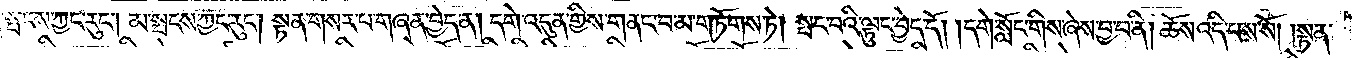སྤངས་ཀྱང་རུང༌། མ་སྤངས་ཀྱང་རུང༌། སྟན་གསར་པ་གཞན་བྱེད་ན། དགེ་འདུན་གྱིས་གནང་བ་མ་གཏོགས་ཏེ། སྤང་བའི་ལྟུང་བྱེད་དོ། །དགེ་སློང་གིས་ཞེས་བྱ་བ་ནི། ཆོས་འདི་པས་སོ། །སྟན་
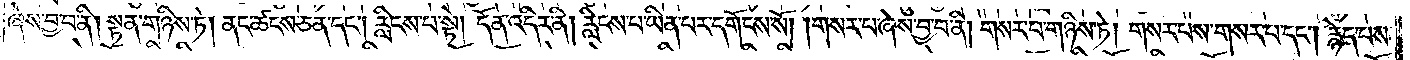ཞེས་བྱ་བ་ནི། སྟན་གཉིས་ཏེ། ནང་ཚངས་ཅན་དང༌། རླིངས་པ་སྟེ། དོན་འདིར་ནི། རླིངས་པ་ཡིན་པར་དགོངས་སོ། །གསར་པ་ཞེས་བྱ་བ་ནི། གསར་པ་གཉིས་ཏེ། གསར་པས་གསར་པ་དང༌། རྙེད་པས་
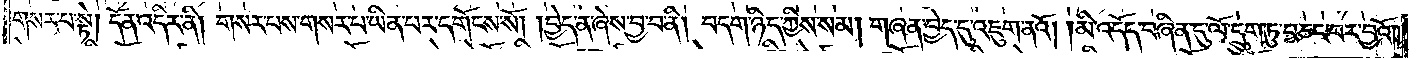གསར་པ་སྟེ། དོན་འདིར་ནི། གསར་པས་གསར་པ་ཡིན་པར་དགོངས་སོ། །བྱེད་ན་ཞེས་བྱ་བ་ནི། བདག་ཉིད་ཀྱིས་སམ། གཞན་བྱེད་དུ་འཇུག་ནའོ། །མི་འདོད་བཞིན་དུ་ལོ་དྲུག་ཏུ་བཅང་བར་བྱའོ། །
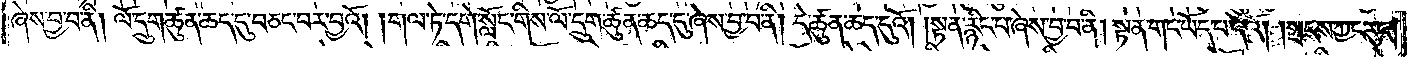ཞེས་བྱ་བ་ནི། ལོ་དྲུག་ཚུན་ཆད་དུ་བཅང་བར་བྱའོ། །གལ་ཏེ་དགེ་སློང་གིས་ལོ་དྲུག་ཚུན་ཆད་དུ་ཞེས་བྱ་བ་ནི། དེ་ཚུན་ཆད་དུའོ། །སྟན་རྙིང་པ་ཞེས་བྱ་བ་ནི། སྟན་གང་ཡོད་པ་དེའོ། །སྤངས་ཀྱང་རུང༌།
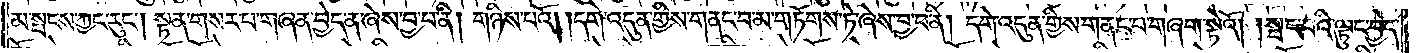མ་སྤངས་ཀྱང་རུང༌། སྟན་གསར་པ་གཞན་བྱེད་ན་ཞེས་བྱ་བ་ནི། གཉིས་པའོ། །དགེ་འདུན་གྱིས་གནང་བ་མ་གཏོགས་ཏེ་ཞེས་བྱ་བ་ནི། དགེ་འདུན་གྱིས་གནང་བ་གཞག་སྟེའོ། །སྤང་བའི་ལྟུང་བྱེད་
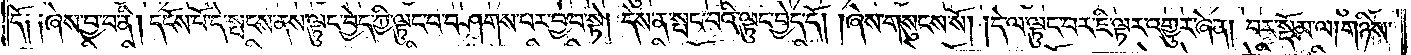དོ༑ ༑ཞེས་བྱ་བ་ནི། དངོས་པོ་དེ་སྤངས་ནས་ལྟུང་བྱེད་ཀྱི་ལྟུང་བ་བཤགས་པར་བྱ་བ་སྟེ། དེས་ན་སྤང་བའི་ལྟུང་བྱེད་དོ། །ཞེས་གསུངས་སོ། །དེ་ལ་ལྟུང་བར་ཇི་ལྟར་འགྱུར་ཞེ་ན། བར་སྡོམ་ལ། གཉིས་
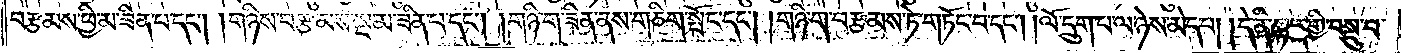བརྩམས་ཕྱི་མ་ཟིན་པ་དང༌། །གཉིས་བརྩམས་སྔ་མ་ཟིན་པ་དང༌། །གཉི་ག་ཟིན་ནས་གཅིག་སྤོང་དང༌། །གཉི་ག་བརྩམས་ཏེ་གཏོང་བ་དང༌། །ལོ་དྲུག་པ་ལ་ཉེས་མེད་པ། །དེ་ནི་སྟན་གྱི་བསྡུ་བ་
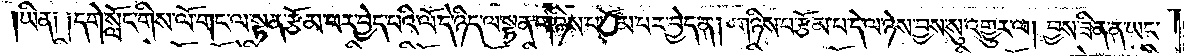ཡིན། །དགེ་སློང་གིས་ལོ་གང་ལ་སྟན་རྩོམ་པར་བྱེད་པའི་ལོ་དེ་ཉིད་ལ་སྟན་གཉིས་པ་རྩོམ་པར་བྱེད་ན། གཉིས་པ་རྩོམ་པ་དེ་ལ་ཉེས་བྱས་སུ་འགྱུར་ལ། བྱས་ཟིན་ན་ཡང་
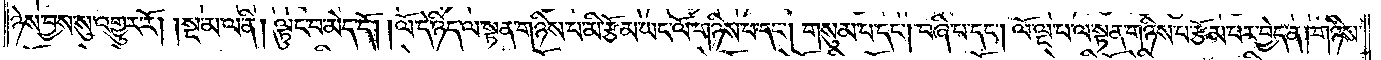ཉེས་བྱས་སུ་འགྱུར་རོ། །སྔ་མ་ལ་ནི། ལྟུང་བ་མེད་དོ། །ལོ་དེ་ཉིད་ལ་སྟན་གཉིས་པ་མི་རྩོམ་ཡང་ལོ་གཉིས་པ་དང༌། གསུམ་པ་དང༌། བཞི་པ་དང༌། ལོ་ལྔ་པ་ལ་སྟན་གཉིས་པ་རྩོམ་པར་བྱེད་ན།གཉིས་
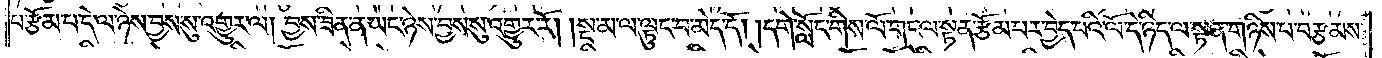པ་རྩོམ་པ་དེ་ལ་ཉེས་བྱས་སུ་འགྱུར་ལ། བྱས་ཟིན་ན་ཡང་ཉེས་བྱས་སུ་འགྱུར་རོ། །སྔ་མ་ལ་ལྟུང་བ་མེད་དོ། །དགེ་སློང་གིས་ལོ་གང་ལ་སྟན་རྩོམ་པར་བྱེད་པའི་ལོ་དེ་ཉིད་ལ་སྟན་གཉིས་པ་བརྩམས་
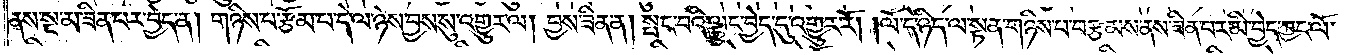ནས་སྔ་མ་ཟིན་པར་བྱེད་ན། གཉིས་པ་རྩོམ་པ་དེ་ལ་ཉེས་བྱས་སུ་འགྱུར་ལ། བྱས་ཟིན་ན། སྤང་བའི་ལྟུང་བྱེད་དུ་འགྱུར་རོ། །ལོ་དེ་ཉིད་ལ་སྟན་གཉིས་པ་བརྩམས་ནས་ཟིན་པར་མི་བྱེད་ཀྱང་ལོ་
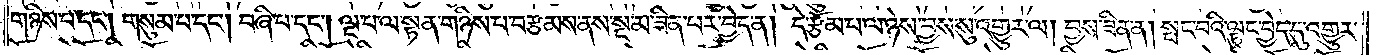གཉིས་པ་དང༌། གསུམ་པ་དང༌། བཞི་པ་དང༌། ལྔ་པ་ལ་སྟན་གཉིས་པ་བརྩམས་ནས་སྔ་མ་ཟིན་པར་བྱེད་ན། དེ་རྩོམ་པ་ལ་ཉེས་བྱས་སུ་འགྱུར་ལ། བྱས་ཟིན་ན། སྤང་བའི་ལྟུང་བྱེད་དུ་འགྱུར་
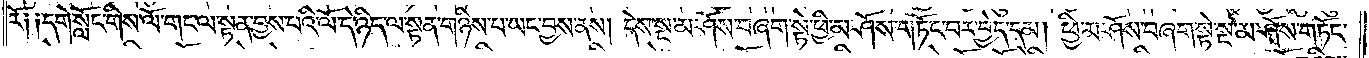རོ༑༑དགེ་སློང་གིས་ལོ་གང་ལ་སྟན་བྱས་པའི་ལོ་དེ་ཉིད་ལ་སྟན་གཉིས་པ་ཡང་བྱས་ནས། དེས་སྔ་མ་ཤོས་བཞག་སྟེ་ཕྱི་མ་ཤོས་གཏོང་བར་བྱེད་དམ། ཕྱི་མ་ཤོས་བཞག་སྟེ་སྔ་མ་ཤོས་གཏོང་
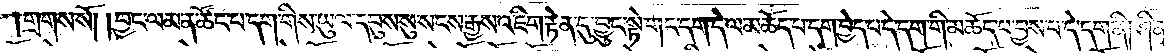གྲགས་སོ། །བྱང་ལམ་ན་ཚོང་པ་དག་གིས་ཡུལ་དབུས་སུ་སངས་རྒྱས་འཇིག་རྟེན་དུ་བྱུང་སྟེ་གང་དག་དེ་ལ་མཆོད་པ་དག་བྱེད་པ་དེ་དག་གི་མཆོད་པ་བྱས་པ་དེ་དག་ནི། ཤིན་
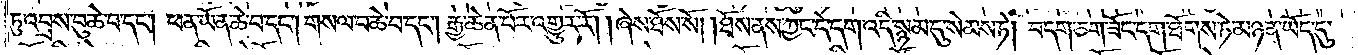ཏུ་འབྲས་བུ་ཆེ་བ་དང༌། ཕན་ཡོན་ཆེ་བ་དང༌། གསལ་བ་ཆེ་བ་དང༌། རྒྱ་ཆེན་པོར་འགྱུར་རོ། །ཞེས་ཐོས་སོ། །ཐོས་ནས་ཀྱང་དེ་དག་འདི་སྙམ་དུ་སེམས་ཏེ། བདག་ཅག་ཟོང་དག་ཐོགས་ཏེ་མཉན་ཡོད་དུ་
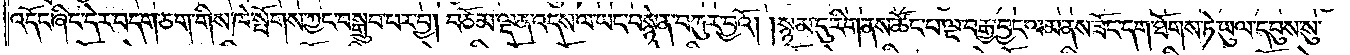འདོང་ཞིང་དེར་བདག་ཅག་གིས་ཁེ་སྤོགས་ཀྱང་བསྒྲུབ་པར་བྱ། བཅོམ་ལྡན་འདས་ལ་ཡང་བསྙེན་བཀུར་བྱའོ། །སྙམ་དུ་རིག་ནས་ཚོང་པ་ལྔ་བརྒྱ་བྱང་ལམ་ནས་ཟོང་དག་ཐོགས་ཏེ་ཡུལ་དབུས་སུ་
